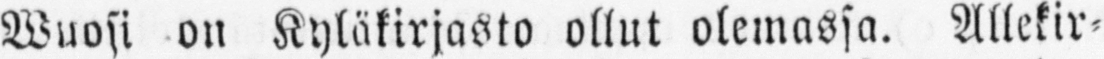Wuosi on Kyläkirjasto ollut olemassa. Allekir-
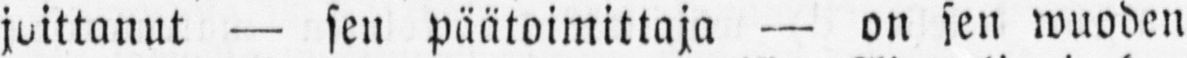joittanut — sen päätoimittaja — on sen wuoden
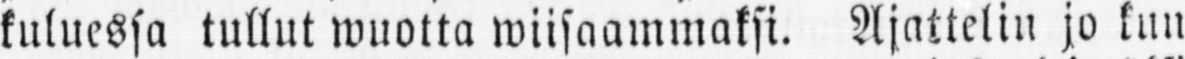kuluessa tullut wuotta wiisaammaksi. Ajattelin jo kun
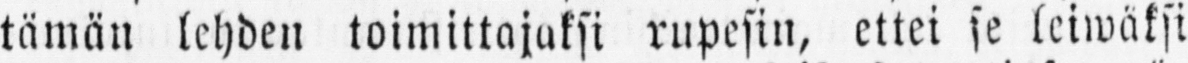tämän lehden toimittajaksi rupesin, ettei se leiwäksi
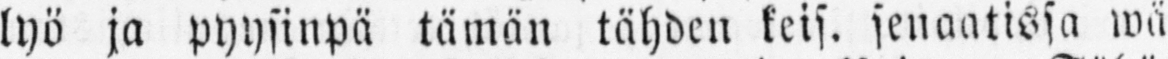lyö ja pyysinpä tämän tähden keis. senaatissa wä-
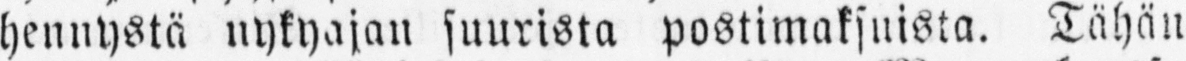hennystä nykyajan suurista postimaksuista. Tähän
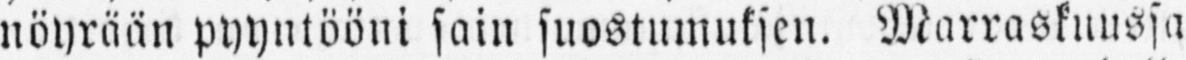nöyrään pyyntööni sain suostumuksen. Marraskuussa
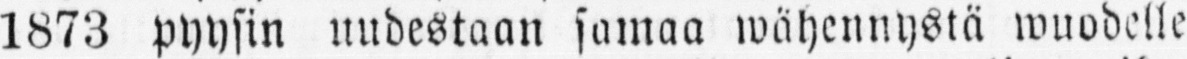1873 pyysin uudestaan samaa wähennystä wuodelle
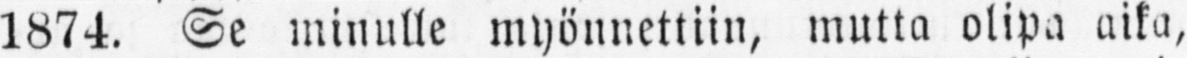1874. Se minulle myönnettiin, mutta olipa aika,
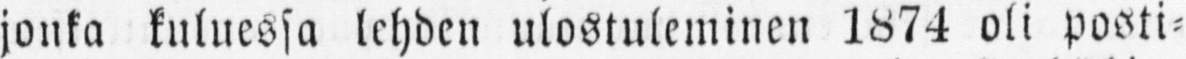jonka kuluessa lehden ulostuleminen 1874 oli posti-
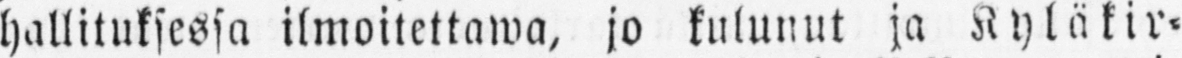hallituksesa ilmoitettawa, jo kulunut ja Kyläkir-
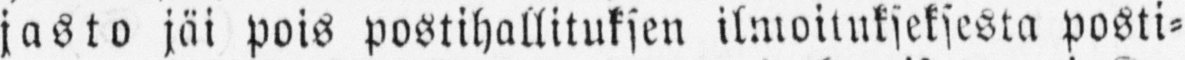jasto jäi pois postihallituksen ilmoitukseksesta posti-
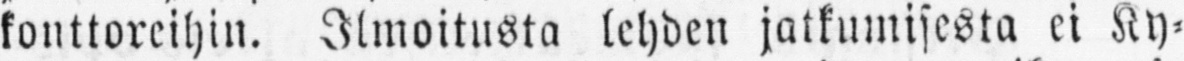konttoreihin. Ilmoitusta lehden jatkumisesta ei Ky-
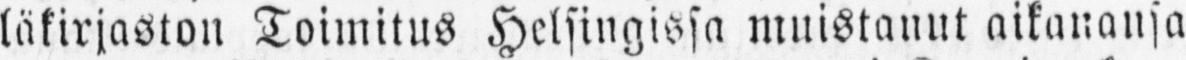läkirjaston Toimitus Helsingissa muistanut aikanansa
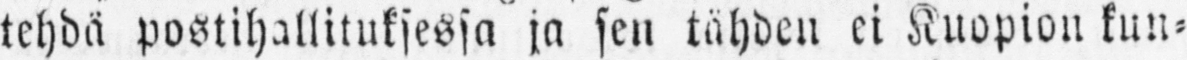tehdä postihallituksessa ja sen tähden ei Kuopion kun-
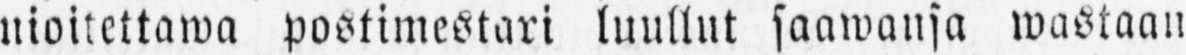nioitettawa postimestari luullut saawansa wastaan
